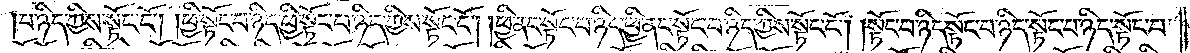པ་ཉིད་ཀྱིས་སྟོང་ངོ༌། །ཕྱི་སྟོང་པ་ཉིད་ཕྱི་སྟོང་པ་ཉིད་ཀྱིས་སྟོང་ངོ༌། །ཕྱི་ནང་སྟོང་པ་ཉིད་ཕྱི་ནང་སྟོང་པ་ཉིད་ཀྱིས་སྟོང་ངོ༌། །སྟོང་པ་ཉིད་སྟོང་པ་ཉིད་སྟོང་པ་ཉིད་སྟོང་པ་
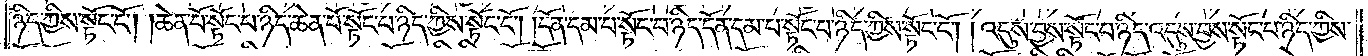ཉིད་ཀྱིས་སྟོང་ངོ༌། །ཆེན་པོ་སྟོང་པ་ཉིད་ཆེན་པོ་སྟོང་པ་ཉིད་ཀྱིས་སྟོང་ངོ༌། །དོན་དམ་པ་སྟོང་པ་ཉིད་དོན་དམ་པ་སྟོང་པ་ཉིད་ཀྱིས་སྟོང་ངོ༌། །འདུས་བྱས་སྟོང་པ་ཉིད་འདུས་བྱས་སྟོང་པ་ཉིད་ཀྱིས་
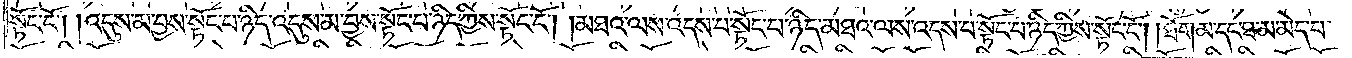སྟོང་ངོ༌། །འདུས་མ་བྱས་སྟོང་པ་ཉིད་འདུས་མ་བྱས་སྟོང་པ་ཉིད་ཀྱིས་སྟོང་ངོ༌། །མཐའ་ལས་འདས་པ་སྟོང་པ་ཉིད་མཐའ་ལས་འདས་པ་སྟོང་པ་ཉིད་ཀྱིས་སྟོང་ངོ༌། །ཐོག་མ་དང་ཐ་མ་མེད་པ་
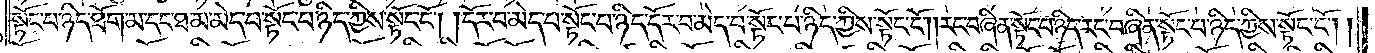སྟོང་པ་ཉིད་ཐོག་མ་དང་ཐ་མ་མེད་པ་སྟོང་པ་ཉིད་ཀྱིས་སྟོང་ངོ༌། །དོར་བ་མེད་པ་སྟོང་པ་ཉིད་དོར་བ་མེད་པ་སྟོང་པ་ཉིད་ཀྱིས་སྟོང་ངོ༌། །རང་བཞིན་སྟོང་པ་ཉིད་རང་བཞིན་སྟོང་པ་ཉིད་ཀྱིས་སྟོང་ངོ༌། །
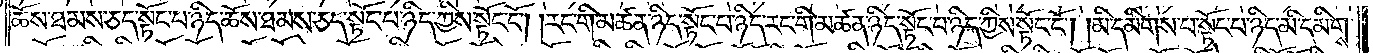ཆོས་ཐམས་ཅད་སྟོང་པ་ཉིད་ཆོས་ཐམས་ཅད་སྟོང་པ་ཉིད་ཀྱིས་སྟོང་ངོ༌། །རང་གི་མཚན་ཉིད་སྟོང་པ་ཉིད་རང་གི་མཚན་ཉིད་སྟོང་པ་ཉིད་ཀྱིས་སྟོང་ངོ༌། །མི་དམིགས་པ་སྟོང་པ་ཉིད་མི་དམིགས་
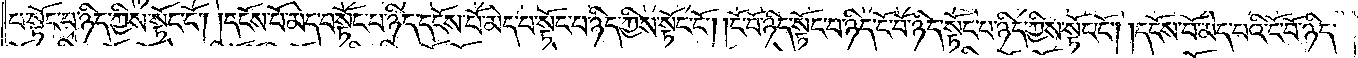པ་སྟོང་པ་ཉིད་ཀྱིས་སྟོང་ངོ༌། །དངོས་པོ་མེད་པ་སྟོང་པ་ཉིད་དངོས་པོ་མེད་པ་སྟོང་བ་ཉིད་ཀྱིས་སྟོང་ངོ༌། །ངོ་བོ་ཉིད་སྟོང་པ་ཉིད་ངོ་བོ་ཉིད་སྟོང་པ་ཉིད་ཀྱིས་སྟོང་ངོ༌། །དངོས་པོ་མེད་པའི་ངོ་བོ་ཉིད་
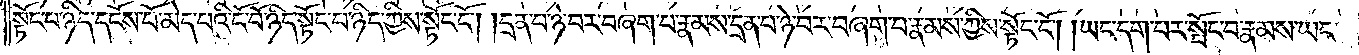སྟོང་པ་ཉིད་དངོས་པོ་མེད་པའི་ངོ་བོ་ཉིད་སྟོང་པ་ཉིད་ཀྱིས་སྟོང་ངོ༌། །དྲན་པ་ཉེ་བར་བཞག་པ་རྣམས་དྲན་པ་ཉེ་བར་བཞག་པ་རྣམས་ཀྱིས་སྟོང་ངོ༌། །ཡང་དག་པར་སྤོང་བ་རྣམས་ཡང་
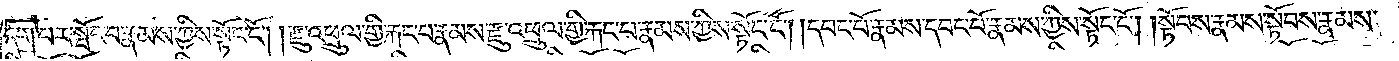དག་པར་སྤོང་བ་རྣམས་ཀྱིས་སྟོང་ངོ༌། །རྫུ་འཕྲུལ་གྱི་རྐང་པ་རྣམས་རྫུ་འཕྲུལ་གྱི་རྐང་པ་རྣམས་ཀྱིས་སྟོང་ངོ༌། །དབང་པོ་རྣམས་དབང་པོ་རྣམས་ཀྱིས་སྟོང་ངོ༌། །སྟོབས་རྣམས་སྟོབས་རྣམས་
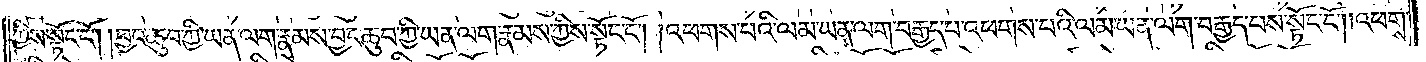ཀྱིས་སྟོང་ངོ༌། །བྱང་ཆུབ་ཀྱི་ཡན་ལག་རྣམས་བྱང་ཆུབ་ཀྱི་ཡན་ལག་རྣམས་ཀྱིས་སྟོང་ངོ༌། །འཕགས་པའི་ལམ་ཡན་ལག་བརྒྱད་པ་འཕགས་པའི་ལམ་ཡན་ལག་བརྒྱད་པས་སྟོང་ངོ༌། །འཕགས་
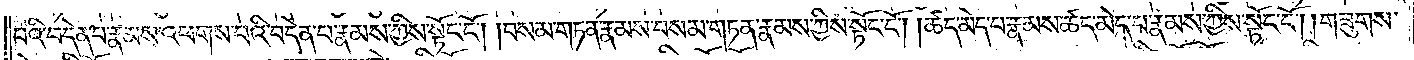པའི་བདེན་པ་རྣམས་འཕགས་པའི་བདེན་པ་རྣམས་ཀྱིས་སྟོང་ངོ༌། །བསམ་གཏན་རྣམས་བསམ་གཏན་རྣམས་ཀྱིས་སྟོང་ངོ༌། །ཚད་མེད་པ་རྣམས་ཚད་མེད་པ་རྣམས་ཀྱིས་སྟོང་ངོ༌། །གཟུགས་
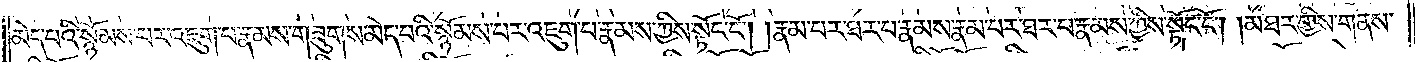མེད་པའི་སྙོམས་པར་འཇུག་པ་རྣམས་གཟུགས་མེད་པའི་སྙོམས་པར་འཇུག་པ་རྣམས་ཀྱིས་སྟོང་ངོ༌། །རྣམ་པར་ཐར་པ་རྣམས་རྣམ་པར་ཐར་པ་རྣམས་ཀྱིས་སྟོང་ངོ༌། །མཐར་གྱིས་གནས་
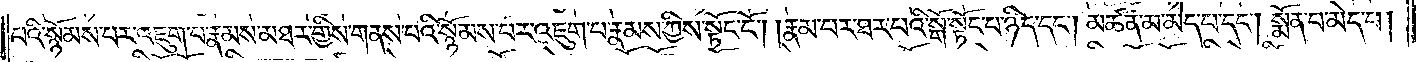པའི་སྙོམས་པར་འཇུག་པ་རྣམས་མཐར་གྱིས་གནས་པའི་སྙོམས་པར་འཇུག་པ་རྣམས་ཀྱིས་སྟོང་ངོ༌། །རྣམ་པར་ཐར་པའི་སྒོ་སྟོང་པ་ཉིད་དང༌། མཚན་མ་མེད་པ་དང༌། སྨོན་པ་མེད་པ།
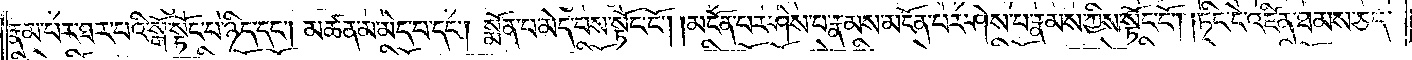རྣམ་པར་ཐར་པའི་སྒོ་སྟོང་པ་ཉིད་དང༌། མཚན་མ་མེད་པ་དང༌། སྨོན་པ་མེད་པས་སྟོང་ངོ༌། །མངོན་པར་ཤེས་པ་རྣམས་མངོན་པར་ཤེས་པ་རྣམས་ཀྱིས་སྟོང་ངོ༌། །ཏིང་ངེ་འཛིན་ཐམས་ཅད་
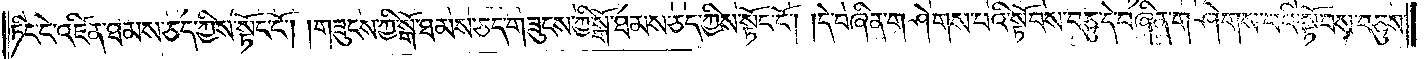ཏིང་ངེ་འཛིན་ཐམས་ཅད་ཀྱིས་སྟོང་ངོ༌། །གཟུངས་ཀྱི་སྒོ་ཐམས་ཅད་གཟུངས་ཀྱི་སྒོ་ཐམས་ཅད་ཀྱིས་སྟོང་ངོ༌། །དེ་བཞིན་གཤེགས་པའི་སྟོབས་བཅུ་དེ་བཞིན་གཤེགས་པའི་སྟོབས་བཅུས་
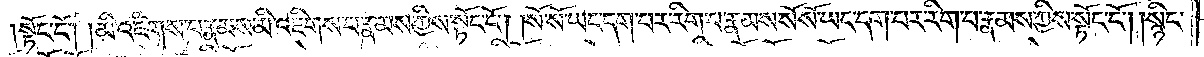སྟོང་ངོ༌། །མི་འཇིགས་པ་རྣམས་མི་འཇིགས་པ་རྣམས་ཀྱིས་སྟོང་ངོ༌། །སོ་སོ་ཡང་དག་པར་རིག་པ་རྣམས་སོ་སོ་ཡང་དག་པར་རིག་པ་རྣམས་ཀྱིས་སྟོང་ངོ༌། །སྙིང་
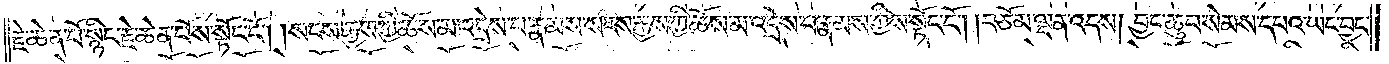རྗེ་ཆེན་པོ་སྙིང་རྗེ་ཆེན་པོས་སྟོང་ངོ༌། །སངས་རྒྱས་ཀྱི་ཆོས་མ་འདྲེས་པ་རྣམས་སངས་རྒྱས་ཀྱི་ཆོས་མ་འདྲེས་པ་རྣམས་ཀྱིས་སྟོང་ངོ༌། །བཅོམ་ལྡན་འདས། བྱང་ཆུབ་སེམས་དཔའ་ཡང་བྱང་
